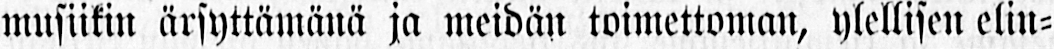musiikin ärsyttämänä ja meidän toimettoman, ylellisen elin-
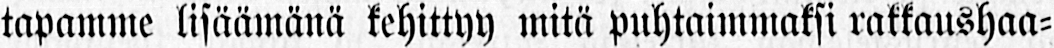tapamme lisäämänä kehittyy mitä puhtaimmaksi rakkaushaa-
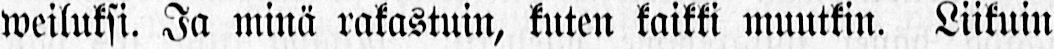weiluksi. Ja minä rakastuin, kuten kaikki muutkin. Liikuin
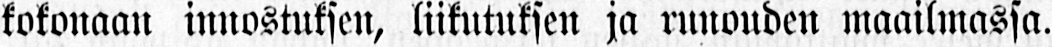kokonaan innostuksen, liikutuksen ja runouden maailmassa.
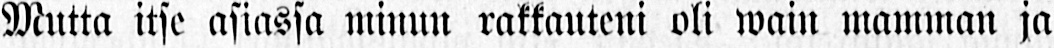Mutta itse asiassa minun rakkauteni oli wain mamman ja
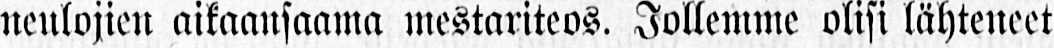neulojien aikaansaama mestariteos. Jollemme olisi lähteneet
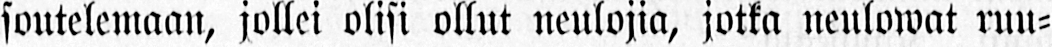soutelemaan, jollei olisi ollut neulojia, jotka neulowat ruu-
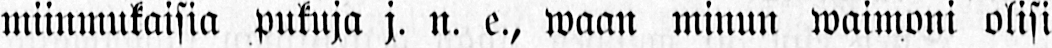miinmukaisia pukuja j. n. e., waan minun waimoni olisi
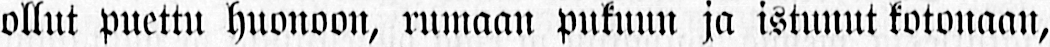ollut puettu huonoon, rumaan pukuun ja istunut kotonaan,
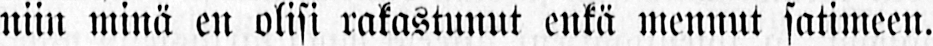niin minä en olisi rakastunut enkä mennut satimeen.
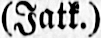(Jatk.)
